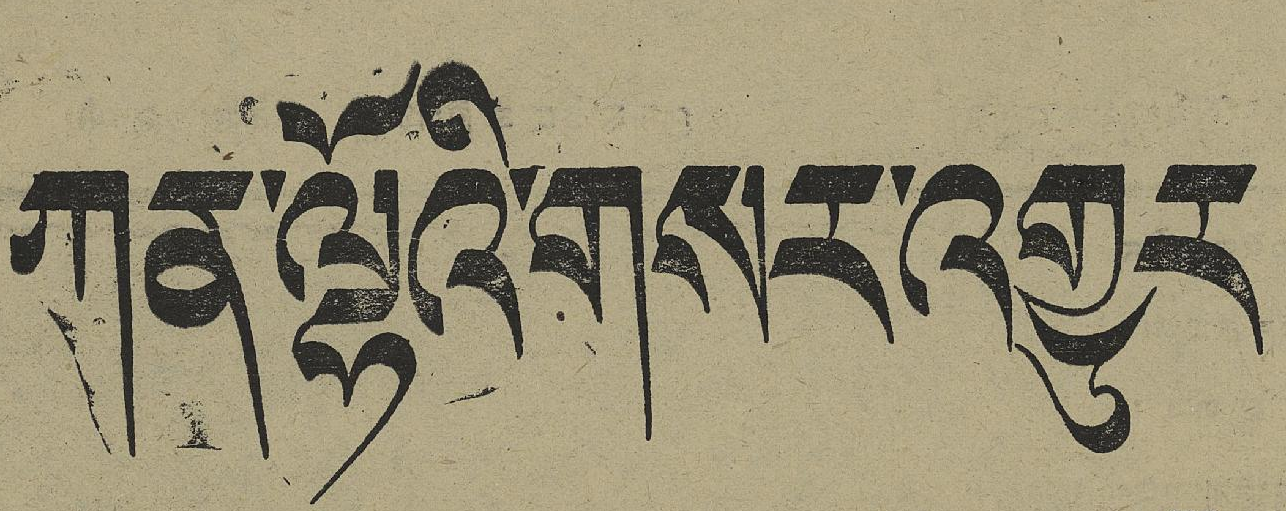ཀན་ལྷོའི་གསར་འགྱུར
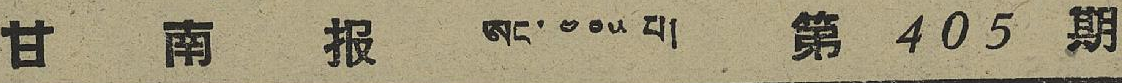甘 南 报 ཨང་ ༤༠༥ པ། 第 405 期
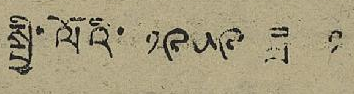སྤྱི་ལོའི་ ༡༩༥༩ ཟླ་ ༡
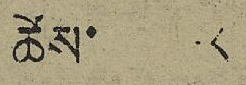ཚེས་ ༨
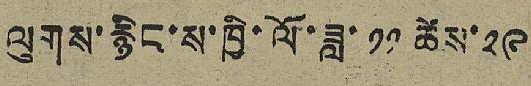ལུགས་རྙིང་ས་ཁྱི་ལོ་ཟླ་ ༡༡ ཚེས་ ༢༩
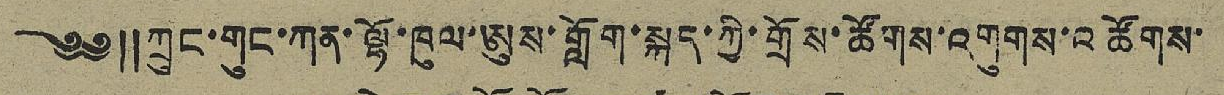༄༅༎ཀྲུང་གུང་ཀན་ལྷོ་ཁུལ་ཨུས་གློག་སྐད་ཀྱི་གྲོས་ཚོགས་འགུགས་འཚོགས་
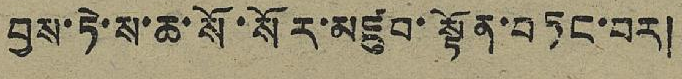བྱས་ཏེ་ས་ཆ་སོ་སོར་མཛུབ་སྟོན་བཏང་བར།
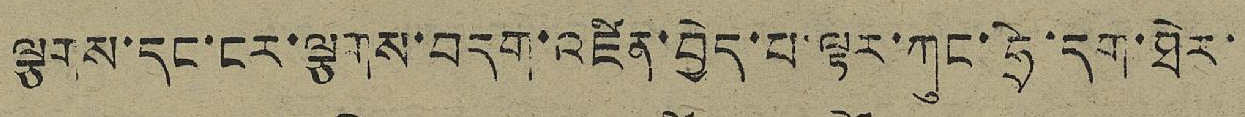ལྕབས་དང་ངར་ལྕགས་བདག་འཛིན་བྱེད་པ་ལྟར་ཀུང་ཧྲེ་དག་ཐེར་
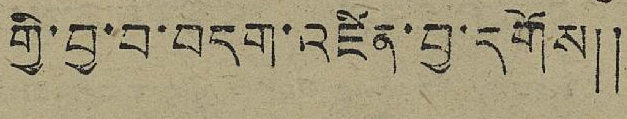གྱི་བྱ་བ་བདག་འཛིན་བྱ་དགོས༎
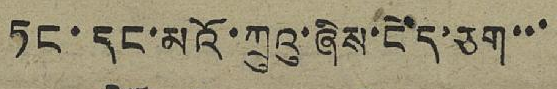ཏང་དང་མའོ་ཀྲུའུ་ཞིས་ངེད་ཅག་་་
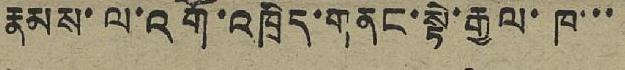རྣམས་ལ་འགོ་འཁྲིད་གནང་སྟེ་རྒྱལ་ཁ་་་
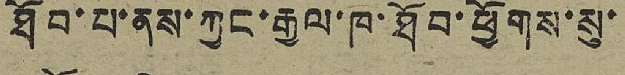ཐོབ་པ་ནས་ཀྱང་རྒྱལ་ཁ་ཐོབ་ཕྱོགས་སུ་
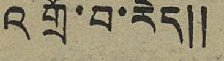འགྲོ་བ་རེད།།
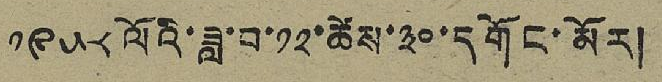༡༩༥༨ ལོའི་ཟླ་བ་ ༡༢ ཚེས་ ༣༠ དགོང་མོར།
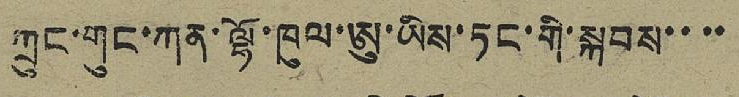ཀྲུང་གུང་ཀན་ལྷོ་ཁུལ་ཨུ་ཡིས་ཏང་གི་སྐབས་་་་
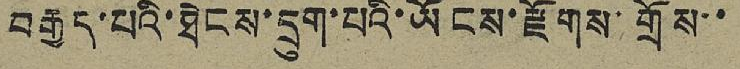བརྒྱད་པའི་ཐེངས་དྲུག་པའི་ཡོངས་རྫོགས་གྲོས་་
